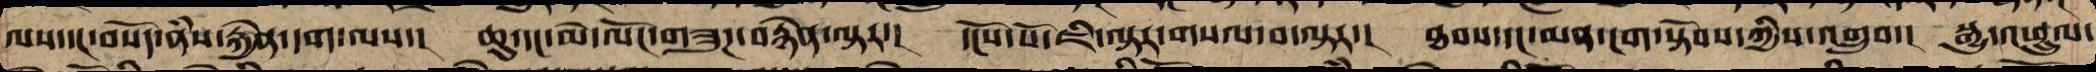ལས་དང་བསོད་ནཾས་རྐྱེན་དག་ལས་། ཆུ་དང་མེ་ལོང་གཟུཌ་བརྙེན་ལྟར་། དངོས་པོ་ཇི་ལྟར་གསལ་བ་ལྟར་། ཐབས་དང་མན་ངག་སྟོབས་ཀྱིས་འགྲུབ་། སྒྱུ་འཕྲུལ་
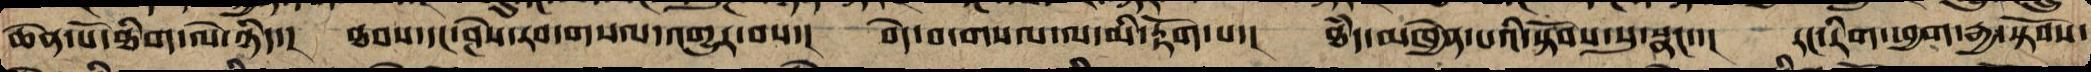ཆེན་པོ་ཐིག་ལེ་ཉིད་། ཐབས་དང་ཤེས་རབ་གསལ་འགྱུར་བས་། བདེ་བ་གསལ་ལ་མི་རྟོག་པ་། ཐཾད་མཁྱེན་པའི་སྟོབས་སུ་སྣང་་། རང་ཉིད་ཕྱག་རྒྱ་སྟོབས་
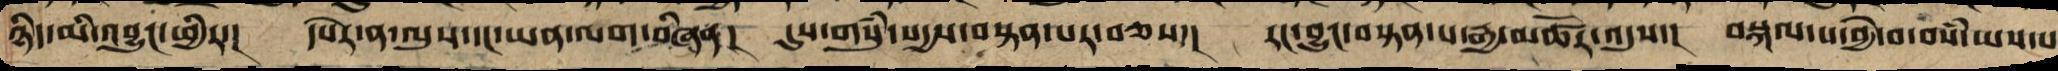ཉིད་མི་འབྱུང་ཕྱིར་། དཔེར་ན་ལུས་དང་ཡན་ལག་བཞིན་། དུས་གསུཾ་སདྱས་བསྟན་པར་བཅས་། རང་བྱུང་བསྟན་པ་རྒྱ་མཚོར་འདུས་། བསྐལ་པ་བྱེ་བ་བསཾ་ཡས་པ
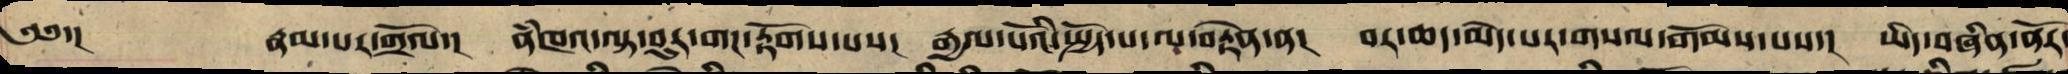༄༅་། རྣམ་པར་གྲོལ་། ནཾཁའ་ལྟ་བུར་གང་རྟོགས་པས་། རྒྱལ་པོའི་སྤྱོད་པ་ལ་བརྟེན་ན་། བར་ཆད་མེད་པར་གསལ་གོམས་པས་། ཡིད་བཞིན་ནོར་
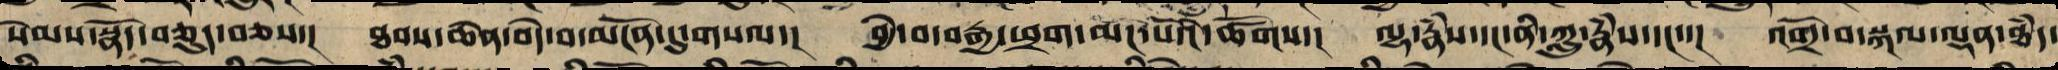སེམས་སྣོད་བཅུད་བཅས་། ཐབས་ཆེན་བདེ་བར་མངོན་དུ་གསལ་། བྱེ་བ་བརྒྱ་ཕྲག་མང་པོའི་ཚོགས་། ལྷ་རྣཾས་དང་ནི་ཀླུ་རྣཾས་དང་། འགྲོ་བ་སྐལ་ལྡན་ཐཾད་
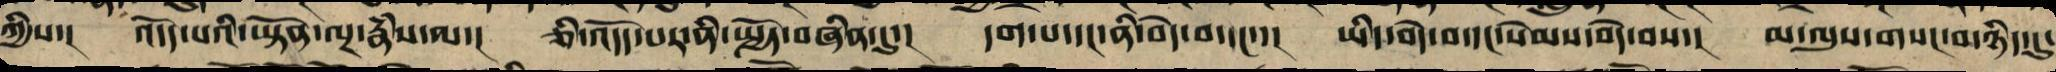ཀྱིས་། འདོད་པའི་ཡྟོན་ལྔ་རྣཾས་ལ་། ཅི་འདོད་པར་ནི་སྤྱོད་བཞིན་དུ་། དག་པ་དང་ནི་བདེ་བ་དང་་། ཡིད་བདེ་བ་དང་སེམས་བདེ་བས་། མ་ལུས་གསང་བ་ཉིད་དུ་
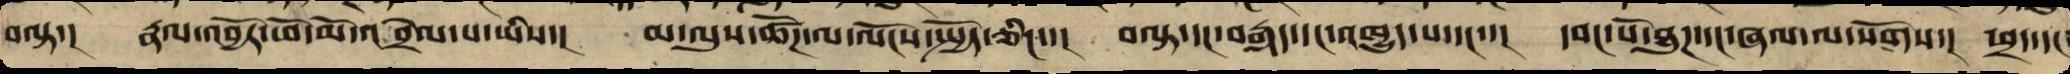བལྟ་། རྣལ་འབྱོར་ཕོ་མོར་འབྲེལ་བ་ཡིས་། མ་ལུས་ཚོཌ་ལ་ལོངས་སྤྱོད་ཅིང་་། བལྟ་དང་བརྒད་དང་འཁྱུད་པ་དང་་། དབང་པོ་ཐུཌ་དང་ཞལ་ལ་སོགས་། ཕྲད་དང་
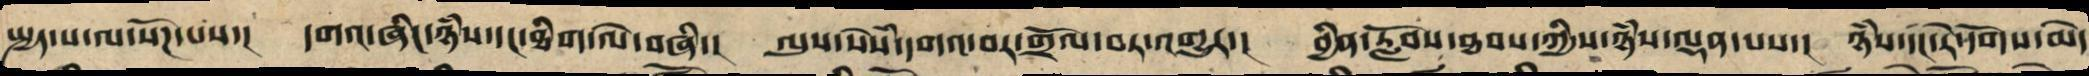སྤྱད་པ་ལ་སོཌ་པས་། དགའ་ཞིང་ཉཾས་དང་ཐིག་ལེ་བཞི་། ལུས་སེཾས་དགའ་བར་གྲོལ་བར་འགྱུར་། བྱིན་རླབས་ཐབས་ཀྱི་ཉཾས་ལྡན་པས་། ཉཾས་དང་རེ་དོགས་མེད
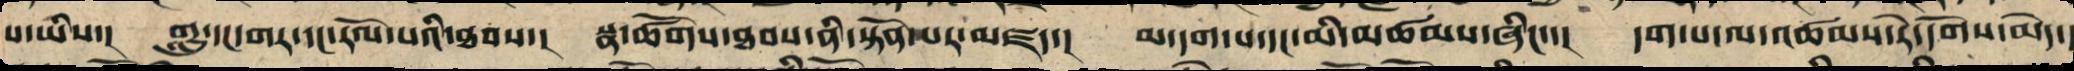པ་ཡིས་། གླུ་དང་གར་དང་རོལ་པའི་ཐབས་། སྣ་ཚོགས་ཐབས་ནི་སྟོན་པར་མཛད་། མ་དག་པ་དང་མི་འཚམས་ཞིང་་། དག་པ་ལ་འཚམས་རེ་དོགས་མེད་།
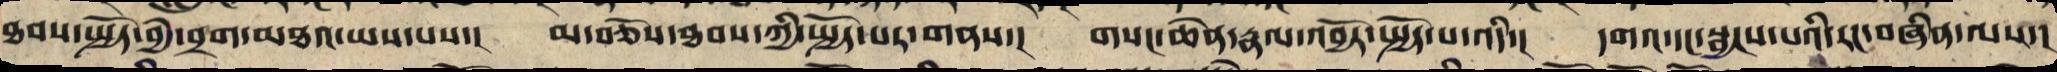ཐབས་སྤྱོད་བྱེ་བྲག་མཐའ་ཡས་པ་། མ་བཅོས་ཐབས་ཀྱི་སྤྱོད་པར་གནས་། གསང་ཆེན་རྣལ་འབྱོར་སྤྱོད་པ་འདི་། དགའ་དང་སྦྱངས་པའི་རང་བཞིན་ལས་།
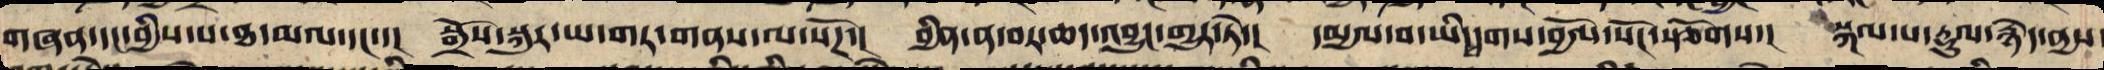གཞན་དང་བྱིས་པ་ཐ་མལ་དང་་། སྒྲོ་སྐུར་ཡ་གར་གནས་ལ་སོགས་། བྱིན་ན་བར་ཆད་འབྱུང་འགྱུར་ཏེ་། དམྱལ་བ་ཡི་དྭགས་བྱོལ་སོང་རྩོགས་། སྐལ་པ་རྡུལ་སྙེད་ནྱས
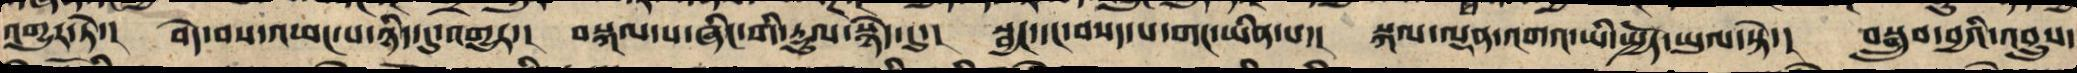འགྱུར་ཏེ་། བདེ་བས་འཕང་པ་ཉིད་དུ་འགྱུར་། བསྐལ་པ་ཞིང་གི་རྡུལ་སྙེད་དུ་། སྦྱང་དང་བསད་པ་གང་ཡིན་པ་། སྐལ་ལྡན་འགའ་ཡི་སྤྱོད་ཡུལ་ཏེ་། བསྒྲུབ་བྱའི་འབྲུས་
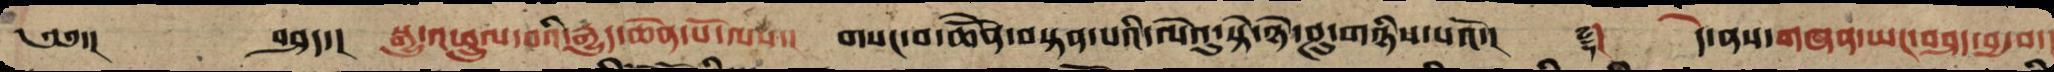༄༅་། བཤད་། སྒྱུ་འཕྲུལ་བའི་རྒྱུད་ཆེན་པོ་ལས་། གསང་བ་ཆེོན་བསྟན་པའི་ལེའུ་སྟེ་ཉི་ཤུ་གཉིས་པའོ་།། ༈།  དེ་ནས་གཞན་ཡང་བཤད་བྱ་བ་།
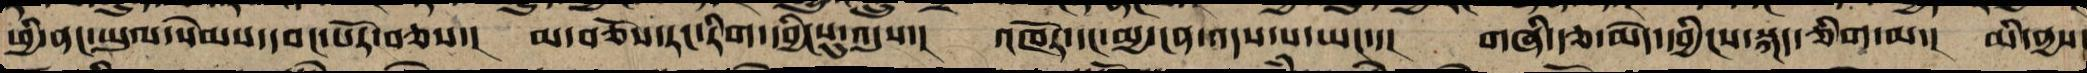ཕྱི་ནང་ཡུལ་སེམས་དབང་པོར་བཅས་། མ་བཅོས་རང་རིག་དབྱིངསུ་འདུས་། འཁོར་དང་མྱ་ངན་འདས་པ་ཡང་་། གཞི་རྩ་མེད་དབྱིངས་སྐད་ཅིག་མ་། མི་ནྱས་
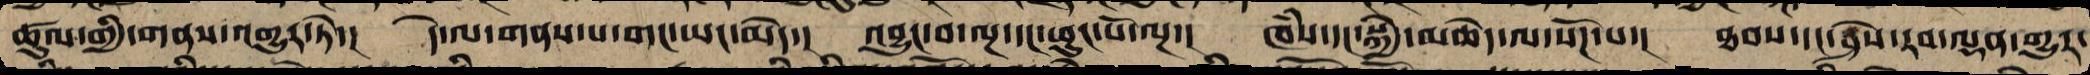ཚུལ་གྱིས་གནས་འགྱུར་ཏེ་། དེ་ལ་གནས་པ་གང་ཡང་མེད་། འབྱུང་བ་ལྔ་དང་ཕུང་པོ་ལྔ་། ཁཾས་དང་སྐྱེ་མཆེད་ལ་སོཌ་པ་། ཐབས་དང་ཤེས་རབ་ལྡན་གྱུར་
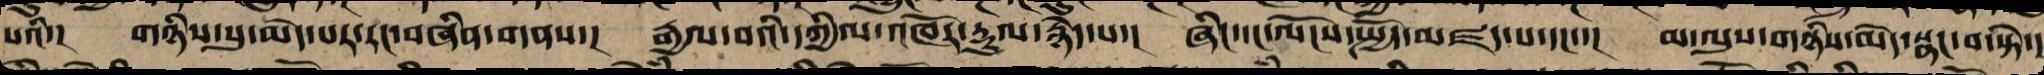པའི་། གཉིས་སུ་མེད་པར་རང་བཞིན་གནས་། རྒྱལ་བའི་དཀྱིལ་འཁོར་རྡུལ་སྙེད་པ་། ཞིང་དང་ལོངས་སྤྱོད་མཛད་པ་དང་་། མ་ལུས་གཉིས་མེད་སྣང་བ་སྟེ་།
